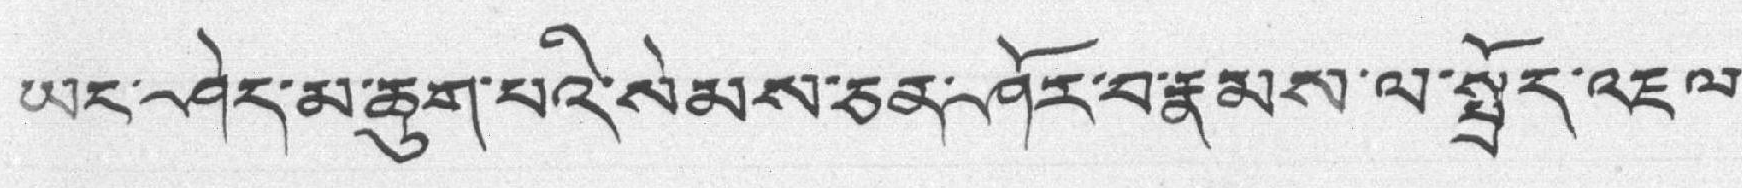ཡང་ཤེད་མ་ཆུག་པའི་སེམས་ཅན་ཤོར་བ་རྣམས་ལ་སྤྲོད་འཇལ་
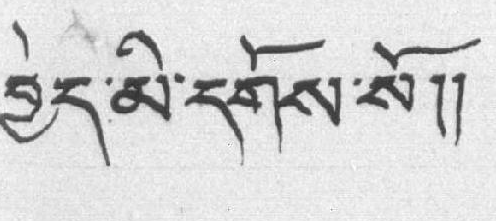བྱེད་མི་དགོས་སོ།།
